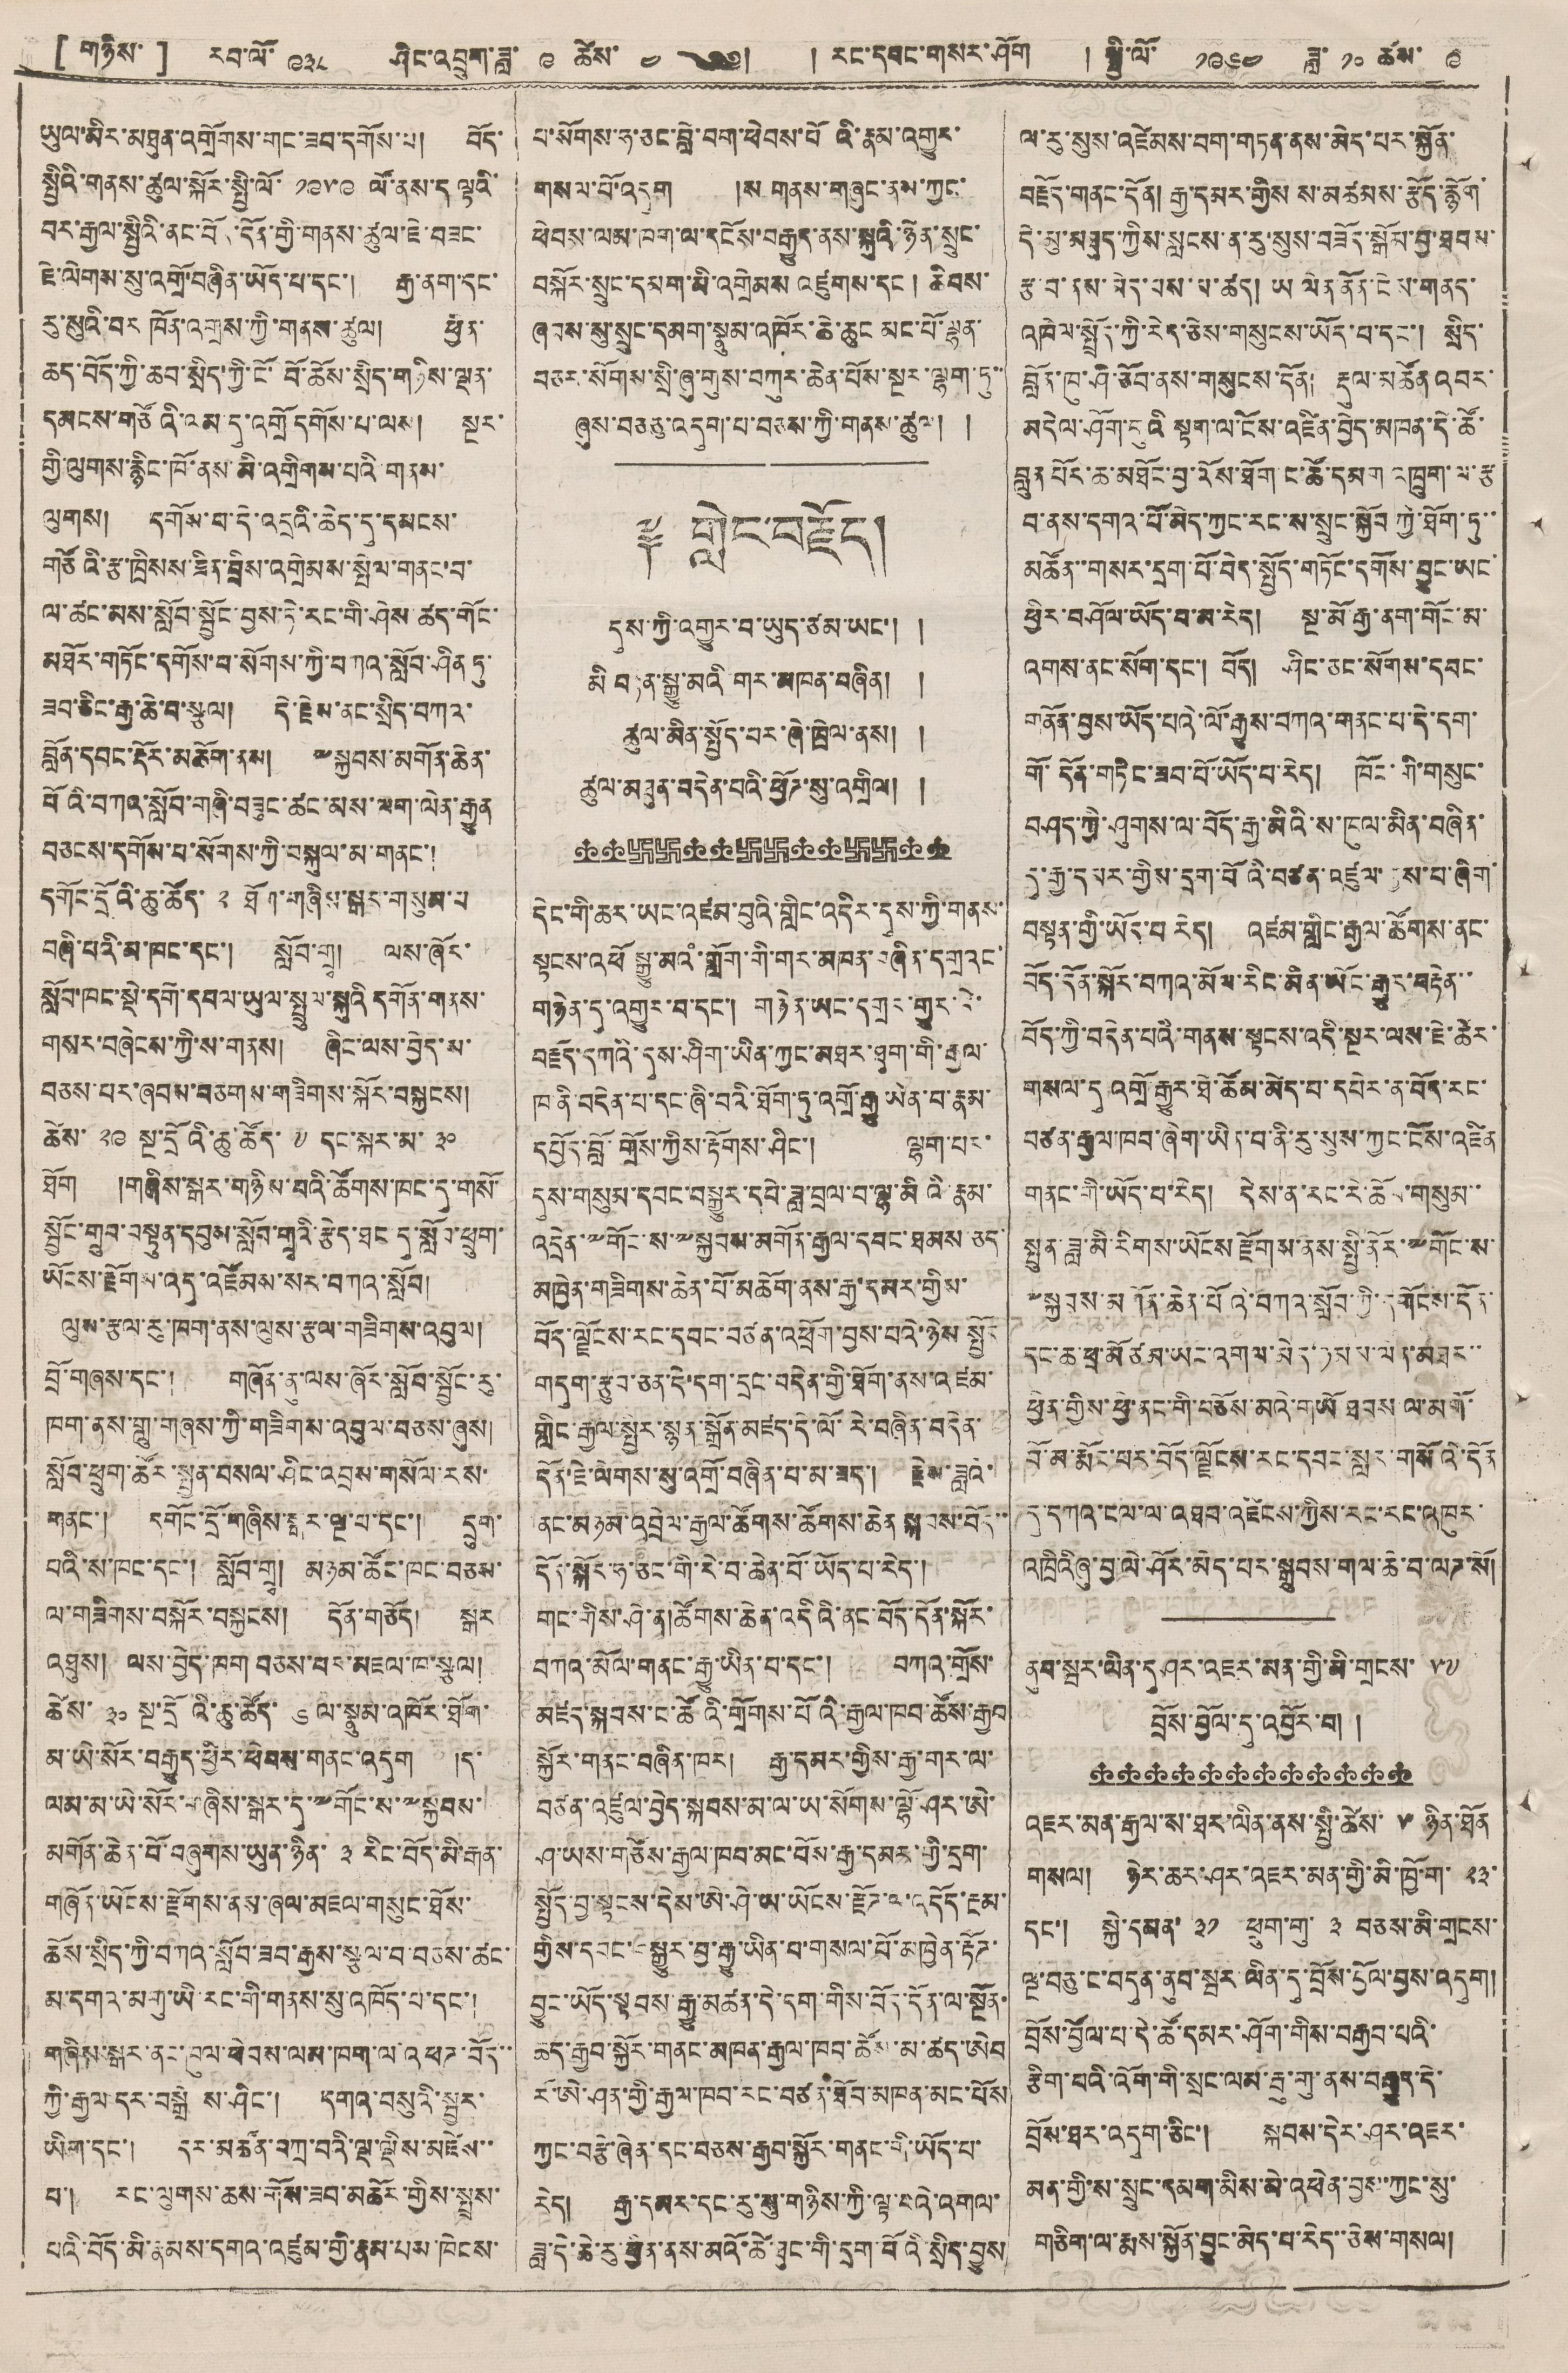[ གཉིས་ ] རབ་ལོ་ ༩༣༨ ཤིང་འབྲུག་ཟླ་ ༩ ཚེས་ ༤ ༄༅། །རང་དབང་གསར་ཤོག །སྤྱི་ལོ་ ༡༩༦༤ ཟླ་ ༡༠ ཚེས་༩
ཡུལ་མིར་མཐུན་འགྲོགས་གང་ཟབ་དགོས་པ། བོད་
སྤྱིའི་གནས་ཚུལ་སྐོར་སྤྱི་ལོ་ ༡༩༥༩ ལོ་ནས་ད ལྟའི་
བར་རྒྱལ་སྤྱིའི་ནང་བོད་དོན་གྱི་གནས་ཚུལ་ཇེ་བཟང་
ཇེ་ལེགས་སུ་འགྲོ་བཞིན་ཡོད་པ་དང་། རྒྱ་ནག་དང་
རུ་སུའི་བར ཁོན་འགྲས་ཀྱི་གནས་ཚུལ། ཕྱིན་
ཆད་བོད་ཀྱི་ཆབ་སྲིད་ཀྱི་ངོ་བོ་ཆོས་སྲིད་གཉིས་ལྡན་
དམངས་གཙོའི་ལམ་དུ་འགྲོ དགོས་པ་ལས། སྔར་
གྱི་ལུགས་རྙིང་ཁོ་ནས་མི་འགྲིགས་པའི་གནས་
ལུགས། དགོས་པ་དེ་འདྲའི་ཆེད་དུ་དམངས་
གཙོའི་རྩ་ཁྲིམས་ཟིན་བྲིས་འགྲེམས་སྤེལ་གནང་བ་
ལ་ཚང་མས་སློབ་སྦྱོང་བྱས་ཏེ་རང་གི་ཤེས ཚད་གོང་
མཐོར་གཏོང་དགོས་པ་སོགས་ཀྱི་བཀའ་སློབ་ཤིན ཏུ་
ཟབ་ཅིང་རྒྱ་ཆེ་བ་སྩལ། དེ་རྗེས་ནང་སྲིད་བཀའ་
བློན་དབང་རྡོར་མཆོག་ནས། ༸སྐྱབས་མགོན་ཆེན་
པོའི་བཀའ་སློབ་གཞི་བཟུང་ཚང་མས་ལག་ལེན་རྒྱུན
བཅངས་དགོས་པ་སོགས་ཀྱི་བསྐུལ་མ་གནང་།
དགོང་དྲོའི་ཆུ་ཚོད་ ༢ ཐོག་གཞིས་སྒར་གསུམ་པ
བཞི་པའི་མ་ཁང་དང་། སློབ་གྲྭ། ལས་ཞོར་
སློབ་ཁང་སྡེ་དགེ་དཔལ་ཡུལ་སྤྲུལ་སྐུའི་དགོན་གནས་
གསར་བཞེངས་ཀྱི་ས་གནས། ཞིང་ལས་བྱེད་པ་
བཅས་པར་ཞབས་བཅགས་གཟིགས་སྐོར་བསྐྱངས།
ཚེས ༢༩ སྔ་དྲོའི་ཆུ་ཚོད་ ༧ དང་སྐད་མ་ ༣༠
ཐོག །གཞིས་སྒར་གཉིས་པའི་ཚོགས་ཁང་དུ་གསོ་
སྦྱོང་སྒྲུབ་བསྟུན་དབུས་སློབ་གྲྭའུ་རྩེད་ཐང དུ་སློབ་ཕྲུག་
ཡོངས་རྫོགས་འདུ་འཛོམས་སར་བཀའ་སློབ།
ལུས་རྩལ་རུ་ཁག་ནས་ལུས་རྩལ་གཟིགས་འབུལ།
བྲོ་གཞས་དང་། གཞོན་ནུ་ལས་ཞོར་སློབ་སྦྱོང་རུ་
ཁག་ནས་གླུ་གཞས་ཀྱི་གཟིགས་འབུལ་བཅས་ཞུས།
སློབ་ཕྲུག་ཚོར་སྤྱན་གསལ་ཤིང་འབྲས་གསོལ་རས་
གནང་། དགོང་དྲོ་གཞིས་སྒར་ལྔ་པ་དང་། དྲུག་
པའི་ས་ཁང་དང་། སློབ་གྲྭ། མཉམ་ཚོང་ཁང་བཅས་
ལ་གཟིགས་བསྐོར་བསྐྱངས། དོན་གཅོད། སྒར
འཐུས། ལས་བྱེད་ཁག བཅས་པད་འཇལ་ཁ་སྩལ།
ཚེས་ ༣༠ སྔ་དྲོའི་ཆུ་ཚོད་ ༦ ལ་སྣུམ་འཁོར་ཐོག་
མ་ཡེ་སོར་བརྒྱུད་ཕྱིར་ཕེབས་གནང་འདུག །ད་
ལམ་མ་ཡེ་སོར་གཞིས་སྒར་དུ་༸གོང་ས་༸སྐྱབས་
མགོན་ཆེན་པོ་བཞུགས་ཡུན་ཉིན་ ༣ རིང་བོད་མི་རྒན་
གཞོན་ཡོངས་རྫོགས་ནས་ཞལ་འཇལ་གསུང་ཐོས་
ཆིས་སྲིད་ཀྱི་བཀའ་སློབ་ཟབ་རྒྱས་སྩལ་བ་བཅས་ཚང་
མ་དགའ་མགུ་ཡི་རང་གི་གནས་སུ་འཁོད་པ་དང་།
གཞིས་སྒར་ནང་ཁུལ་ཕེབས་ལམ་ཁག་ལ་འཕཊ་བོད་་
ཀྱི་རྒྱལ་དར་བསྒྲེ ས་ཤིང་། དགའ་བསུའི་སྦྱར་
ཡིག་དང་། དར་མཚོན་བཀྲ་བའི་ལྡ་ལྡིས་འཛེས་་
པ་། རང་ལུགས་ཆས་གོས་ཟབ་མཆོར་གྱིས་སྤྲུས་
པའི་བོད་མི་རྣམས་དགའ་འཛུམ་གྱི་རྣམ་པས་ཁེངས་
པ་སོགས་ཧ་ཅང་བླེ་བག་ཕེབས་པོའི་རྣམ་འགྱུར་
གསལ་པོ་འདུག །ས་གནས་གཞུང་ནས་ཀྱང་
ཕེབས་ལམ་ཁག་ལ་དངོས་བརྒྱུད་ནས་སྐུའི་ཉེན་སྲུང་
བསྐོར་སྲུང་དམག་མི་འགྲེམས འཛུམས་དང་། ཆིབས་
ཞབས་སུ་སྲུང་དམག་སྣུམ་འཁོར་ཆེ་ཆུང མང་པོ་ལྷན་
བཅར་སོགས་སྲི་ཞུ་གུས་བཀུར་ཆེན་པོས་སྔར་ལྷག་ཏུ་
ཞུས་བཅཅུ་འདུག་པ་བཅས་ཀྱི་གནས་ཚུལ། །
༈ གླེང་བརྗོད།
དུས་ཀྱི་འགྱུར་བ་ཡུད་ཙམ་ཡང་། །
མི་བརྟན་སྒྱུ་མའི གར་མཁན་བཞིན། །
ཚུལ་མིན་སྤྱོད་པར་ཞེ་ཁྲེལ་ནས། །
ཚུལ་མཐུན་བདེན་པའི་ཕྱོཊ་སུ་འགྲིལ། །
དེང་གི་ཆར་ཡང་འཛམ་བུའི་གླིང་འདིར་དུས་ཀྱི་གནས་
སྟབས་འཕོ སྒྱུ་མའཾ་གློག་གི་གར་མཁན་བཞིན་དགྲའང་
གཉེན་དུ་འགྱུར་བ་དང་། གཉེན་ཡང་དགྲར་གྱུར་ཏེ་
བརྗོད་དཀའི་དུས་ཤིག་ཡིན་ཀྱང་མཐར་ཐུག་གི་རྒྱལ་
ཁ ནི་བདེན་པ་དང་ཞི་བའི་ཐོག་ཏུ་འགྲོ་རྒྱུ ཡིན་པ་རྣམ་
དཔྱོད་བློ་གྲོས་ཀྱིས་རྟོགས་ཤིང་། ལྷག་པར་
དུས་གསུམ་དབང་བསྒྱུར་དཔེ་ཟླ་བྲལ་བ་ལྷ་མིའི་རྣམ་
འདྲེན་༸གོང་ས་༸སྐྱབས་མགོན་རྒྱལ་དབང་ཐམས ཅད་
མཁྱེན་གཟིགས་ཆེན་པོ་མཆོག་ནས་རྒྱ་དམར་གྱིས་
བོད་ལྗོངས་རང་དབང་བཙན་འཕྲོག་བྱས་པའི་ཉེས སྤྱོད་
གདུག་རྩུབ་ཅན་དེ་དག་དྲང་བདེན་གྱི་ཐོག་ནས་འཛམ་
གླིང་རྒྱལ་སྤྱར་སྙན་སྒྲོན་མཛད་དེ་ལོ་རེ་བཞིན་བདེན་
དོན་ཇེ་ལེགས་སུ་འགྲོ་བཞིན་པ་མ་ཟད་། རྗེས་ཟླའི་
ནང་མཉམ་འབྲེལ་རྒྱལ་ཚོགས་ཆེན སྐབས་བོད་་
དོན་སྐོར་ཧ་ཅང་གི་རེ་བ་ཆེན་པོ་ཡོད་པ་རེད་།
གང་གིས་ཤེ་ན།ཚོགས་ཆེན་འདིའི་ནང་བོད་དོན་སྐོར་
བཀའ་མོལ་གནང་རྒྱུ་ཡིན་པ་དང་། བཀའ་གྲོས་
མཛད་སྐབས་ང་ཚོའི་གྲོགས་པོའི་རྒྱལ་ཁབ་ཚོས་རྒྱབ་
སྐྱོར་གནང་བཞིན་ཁར། རྒྱ་དམར་གྱིས་རྒྱ་གར་ལ་
བཙན་འཛུལ་བྱེད་སྐབས་མ་ལ་ཡ་སོགས་ལྷོ་ཤར་ཨེ་
ཤ་ཡས་གཙོས་རྒྱལ་ཁབ་མང་པོས་རྒྱ་དམར་གྱི་དྲག་
སྤྱོད་བྱ་སྟབས་དེས་ཨེ་ཤེ་ཡ་ཡོངས་རྫོཊ་ལ་འདོད་རྔམ་
གྱིས་དབང་བསྒྱུར་བྱ་རྒྱུ་ཡིན་པ་གསལ་པོ་མཁྱེན་རྟོཊ་
བྱུང་ཡོད་སྟབས་རྒྱུ་མཚན་དེ་དག་གིས་བོད་དོན་ལ་སྔོན་
ཆད་རྒྱབ་སྐྱོར་གནང་མཁན་རྒྱལ་ཁབ་ཚོས་མ་ཚད་ཨེབ
རོ་ཨེ་ཤན་གྱི་རྒྱལ་ཁབ་རང་བཙན་ཐོབ་མཁན་མང་པོས
ཀྱང་བརྩེ་ཞེན་དང་བཅས་རྒྱབ་སྐྱོར་གནང་གི་ཡོད་པ་
རེད། རྒྱ་དམར་དང་རུ་སུ་གཉིས་ཀྱི་ལྟ་ངའི་འགལ་
ཟླ་དེ་ཆེ་རུ་ཕྱིན་ནས་མའོ་ཚེ་ཐུང་གོ་དྲག་པོའི སྲིད་བྱུས་
ལ་རུ་སུས་འཛེམས་བག་གཏན་ནས་མེད་པར་སྐྱོན་
བརྗོད་གནང་དོན། རྒྱ་དམར་གྱིས ས་མཚམས་རྩོད་རྙོག་
དེ་མུ་མཐུད་ཀྱིས་སླངས་ན་རུ་སུས་བཟོད་སྒོམ་བྱ་ཐབས་
རྩ་བ་ནས་མེད་པས་མ་ཚད། ཡ་ལེན་ནོན་ངེས་གནད་
འཁེལ་སྤྲོད་ཀྱི་རེད་ཅེས་གསུངས་ཡོད་པ་དང་། སྲིད་
བློན་ཁུ་ཤི་ཅོབ་བས་གསུངས་དོན། རྡུལ་མཚོན་འབར་
མདེལ་ཤོག་གུའི སྟག་ལ་ངོས་འཛིན་བྱེད་མཁན་དེ་ཚོ་
བླུན པོར་ཆ་མཐོང་བྱ་འོས་ཐོག ང་ཚོ་དམག འཁྲུག་ལ་རྩ
བ་ནས་དགའ་པོ་མེད་ཀྱང་རང་ས་སྲུང་སྐྱོབ ཀྱི་ཐོག་ཏུ་་
མཚོན་་གསར་དྲག་པོ་བེད་སྤྱོད་གཏོང་དགོས་བྱུང་ཡང་
ཕྱིར་བཤོལ་ཡོད་པ་མ་རེད། སྔ་མོ་རྒྱ་ནག་གོང་མ་
འགས་ནང་སོག་དང་། བོད། ཤིང་ཅང་སོགས་དབང་
གནོན་བྱས་ཡོད་པའི་ལོ་རྒྱུས་བཀའ་གནང་པ་དེ་དག་
གོ་དོན་གཏིང་ཟབ་པོ་ཡོད་པ་རེད། ཁོང་གི་གསུང་
བཤད་ཀྱི་ཤུགས་ལ་བོད་རྒྱ་མིའི་ས་ཁུལ་མིན་བཞིན་
དུ་རྒྱ་དམར་གྱིས་དྲག་པོའི་བཙན་འཛུལ་བྱས་པ་ཞིག་
བསྟན་གྱི་ཡོད་པ་རེད། འཛམ་གླིང་རྒྱལ་ཚོགས་ནང་
བོད་དོན་སྐོར་བཀའ་མོལ་རིང་མིན་ཡོང་རྒྱུར་བརྟེན་་
བོད་ཀྱི་བདེན་པའི་གནས་སྟངས་འདི་སྔར་ལས་ཇེ་ཆེར་
གསལ་དུ འགྲོ་རྒྱུར་ཐེ་ཚོམ་མེད་པ་དཔེར་ན་བོད་རང་
བཙན་རྒྱལ་ཁབ་ཞིག་ཡིན་བ་ནི་རུ་སུས་ཀྱང་ངོས་འཛིན
གནང་གི་ཡོད་པ་རེད། དེས་ན་རང་རེ་ཆོལ་གསུམ་
སྤུན་ཟླ་མི་རིགས་ཡོངས་རྫོགས་ནས་སྤྱི་ནོར་༸གོང་ས་
༸སྐྱབས་མགོན་ཆེན་པོའི་བཀའ་སློབ་ཀྱི་དགོངས་དོན་
དང་ཆ་ཕྲ་མོ ཙམ་ཡང་འགལ་མེད་ཉམས་ལེན་མཐར་་
ཕྱིན་གྱིས་ཕྱི་ནང་གི་བཅོས་མའི་གཡོ ཐབས ལ་མགོ་
བོ་མ་རྨོང་པར་བོད་ལྗོངས་རང་དབང་སླར་གསོའི་དོན
དུ་དཀའ་ངལ་ལ་འཐབ་འཛིངས་ཀྱི་རང་རང་འཁུར་
འཁྲིའིཞུ་བྱ་ལེ་ཤོར་མེད་པར་སྒྲུབས་གལ་ཆེ་བ་ལཊ་སོ།
ནུབ་སྦར་ལིན་དུ་ཤར་འཇར་མན་གྱི་མི་གྲངས་ ༥༧
བྲོས་བྱོལ་དུ་འབྱོར་བ། །
འཇར་མན་རྒྱལ་ས་ཐར་ལིན་ནས་སྤྱི་ཚེས་ ༥ ཉིན་ཐོན་
གསལ། ཉེར་ཆར་ཤར་འཇར་མན་གྱི་མི་ཁྱོ་ག་ ༢༣
དང་། སྐྱེ་དམན་ ༣༡ ཕྲུག་གུ་ ༣ བཅས་མི་གྲངས་
ལྔ་བཅུ་ང་བདུན་ནུབ་སྦར ལིན་དུ་བྲོས་བྱོལ་བྱས་འདུག།
བྲོས་བྱོལ་པ་དེ་ཚོ་དམར་ཤོག་གིས་བརྒྱབ་པའི་
རྩིག་པའི་འོག་གི་སྲང་ལམ་རྦུ་གུ་ནས་བརྒྱུད་དེ་
བྲོས་ཐར་འདུག་ཅིང་། སྐབས་དེར་ཤརའཇར་
མན་གྱི་ས་སྲུང་དམག་མིས་མེ་འཕེན་བྱས་ཀྱང་སུ་
གཅིག་ལ་རྨས་སྐྱོན་བྱུང་མེད་པ་རེད་ཅེས་གསལ།
